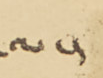ལ་།
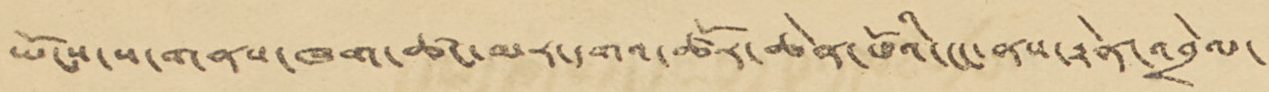ཡོངས་ས་གནས་ཁག་ཚང་མར་དགའ་ཚོར་ཆེན་པོའི་ངང་ནས་རྟེན་འབྲེལ་
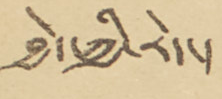བྱེད་ཀྱི་རེད་།
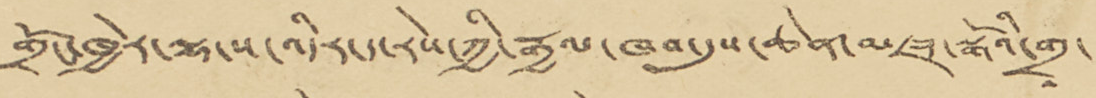གྲོང་ཁྱེར་ལྷ་ས་འདིར་ད་རེས་ཀྱི་རྒྱལ་ཁབ་དུས་ཆེན་མཛད་སྒོའི་གྲྭ་
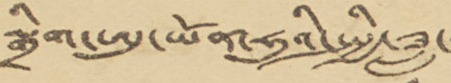སྒྲིག་ཨུ་ཡོན་ཧུའི་སྤྱི་ཟླ་
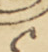༩
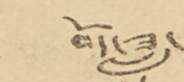བོད་ཟླ་
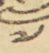༧
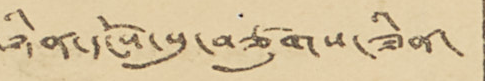ཉིན་དངོས་སུ་བཙུགས་ཟིན་
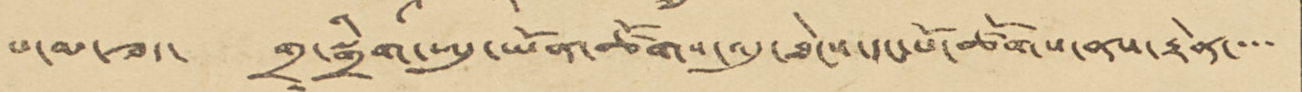པ་མ་ཟད་ གྲྭ་སྒྲིག་ཨུ་ཡོན་ཚོགས་འདུ་ཐེངས་དང་པོ་ཚོགས་ནས་རྟེན་་་་
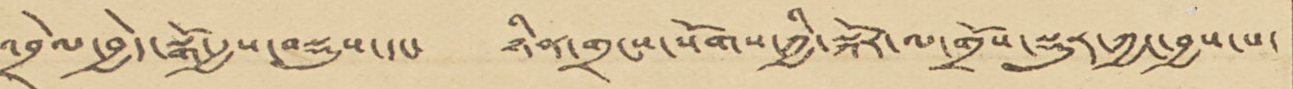འབྲེལ་བྱེད་སྒོ་རྒྱས་བསྡུས་དང་ ཉིན་གྲངས་སོགས་ཀྱི་སྐོར་ལ་གྲོས་སྡུར་ཀྱང་བྱས་པ་
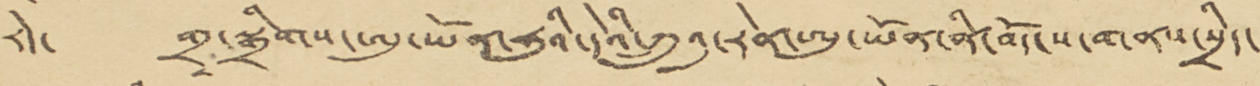རེད་ གྲྭ་སྒྲིགས་ཨུ་ཡོན་ཧུའི་དེའི་ཀུའུ་རེན་ཨུ་ཡོན་ནི་བོད་ས་གནས་སྲིད་
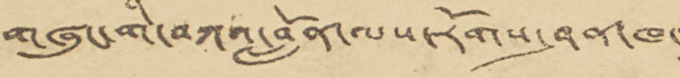གཞུང་གི་བཀའ་བློན་ལས་རོགས་ཤན་ཁ་
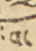བ་
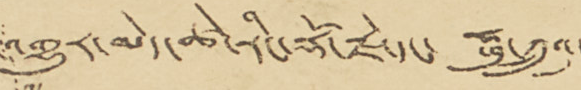འགྱུར་མེད་ཚེ་རིང་རྡོ་རྗེ་དང་ ཧྥུ་ཀྲུའུ་
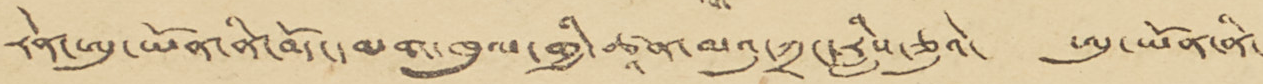རེན་ཨུ་ཡོན་ནི་བོད་དམག་ཁུལ་གྱི་ཚཱན་མའུ་ཀྲང་རླིས་ཅུའེ་ ཨུ་ཡོན་ནི་
